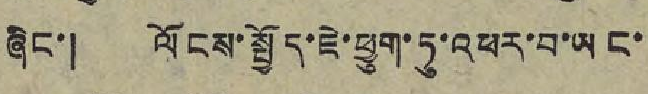ཞིང་། ལོངས་སྤྱོད་ཇེ་ཕྱུག་ཏུ་འཕར་བ་ཡང་
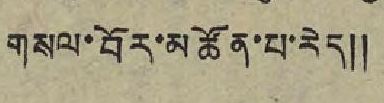གསལ་བོར་མཚོན་པ་རེད༎
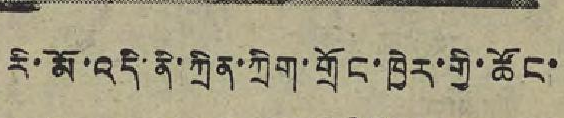རི་མོ་འདི་ནི་ཀྲིན་ཀྲིག་གྲོང་ཁྱེར་གྱི་ཚོང་
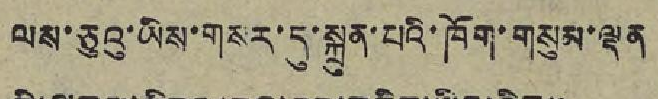ལས་ཅུའུ་ཡིས་གསར་དུ་སྐྲུན་པའི་ཁོག་གསུམ་ལྡན
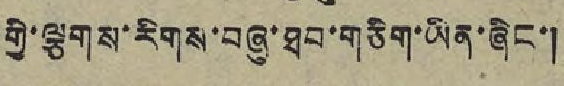གྱི་ལྕགས་རིགས་བཞུ་ཐབ་གཅིག་ཡིན་ཞིང་།
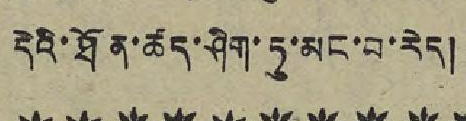དེའི་ཐོན་ཚད་ཤིག་ཏུ་མང་བ་རེད།
